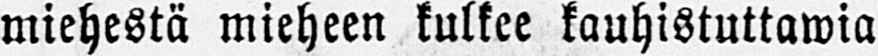miehestä mieheen kulkee kauhistuttawia
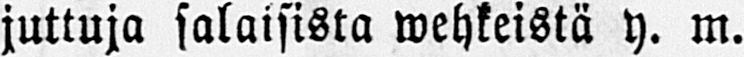juttuja salaisista wehkeistä y. m.
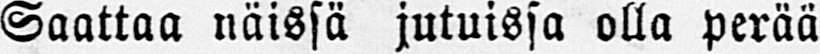Saattaa näissä jutuissa olla perää
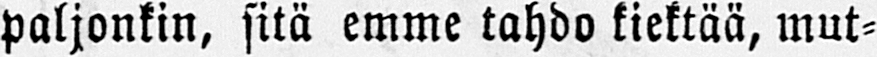paljonkin, sitä emme tahdo kiektää, mut-
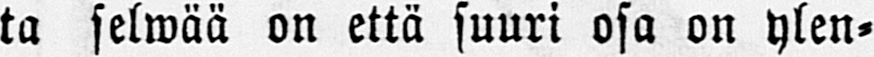ta selwää on että suuri osa on ylen-
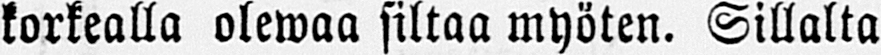korkealla olewaa siltaa myöten. Sillalta
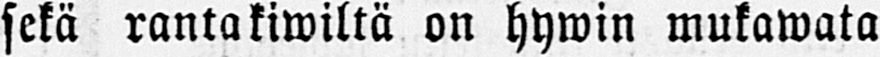sekä ranta kiwiltä on hywin mukawata
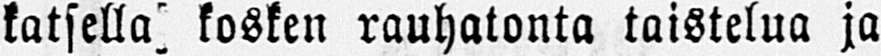katsella kosken rauhatonta taistelua ja
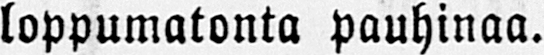loppumatonta pauhinaa.
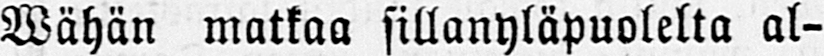Wähän matkaa sillanyläpuolelta al-
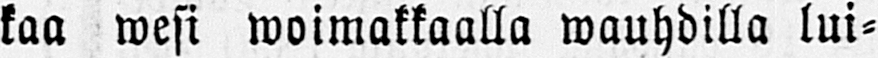kaa wesi woimakkaalla wauhdilla lui-
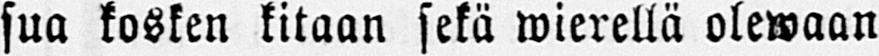sua kosken kitaan sekä wierellä olewaan
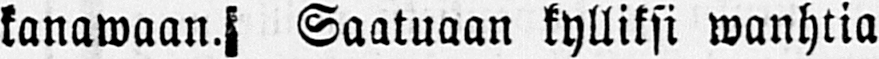kanawaan. Saatuaan kylliksi wanhtia
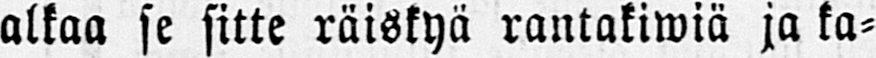alkaa se sitte räiskyä rantakiwiä ja ka-
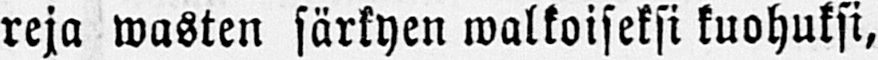reja wasten särkyen walkoiseksi kuohuksi,
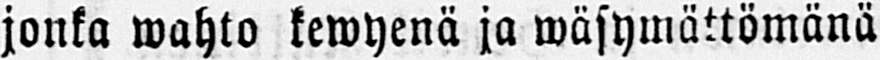jonka wahto kewyenä ja wäsymättömänä
